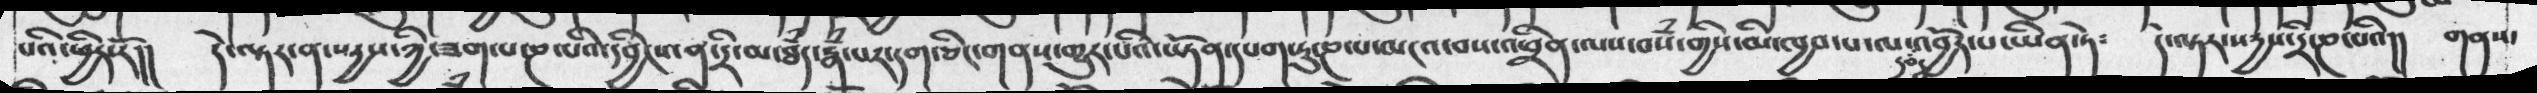པའི་ཕྱིར་རོ།།  དེ་ལྟར་ན་སདྱས་ཀྱི་ཟག་པ་ཎ་པའི་དབྱིངས་ན་དྲི་མ་ཐཾ་རྣཾ་པར་དག་ཅིང་གནས་གྱུར་པའི་ཡྟོན་དཔག་ཏུ་ཎ་པ་མངའ་བས་འཕྲིན་ལས་བསཾ་གྱིས་མི་ཁྱབ་པ་ལ་དབང་འབྱོར་པ་ཡིན་ཏེ༴   དེ་ལྟར་སདྱས་དྲི་ཎ་པའི།།  གནས་
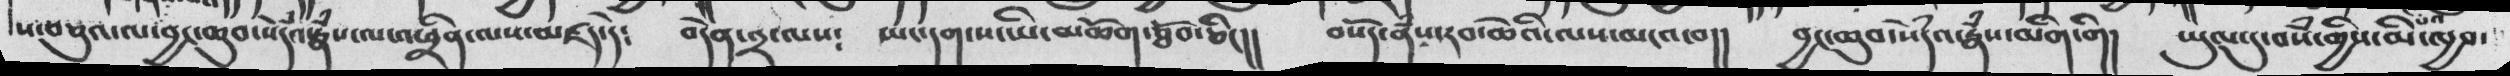ས་བཅུའ་ལ་བྱང་ཆུབ་སེཾདའ་རྣཾས་ལ་འཕྲིན་ལས་མཛད་དེ༴   བདེན་༢་ལས༴   ཡང་དག་ས་ཡི་མཆོག་ཐོབ་ཅིང།།  བསོད་ནཾས་རབ་ཆེའི་ལས་མངའ་བ།།  བྱང་ཆུབ་སེཾདའ་རྣཾས་མིག་གི།  ཡུལ་དུ་བསཾ་གྱིས་མི་ཁྱབ་
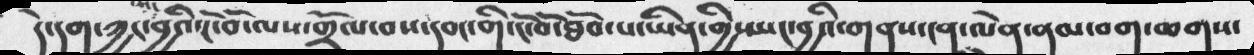དེ་དག་ཀྱང་སྤང་བྱའི་ངོ་བོ་ལས་གྲོལ་བས་དབང་གི་ངོ་བོ་ཐོབ་པ་ཡིན་གྱི་སྤང་བྱའི་གནས་ངན་ལེན་ནམ་བག་ཆགས་
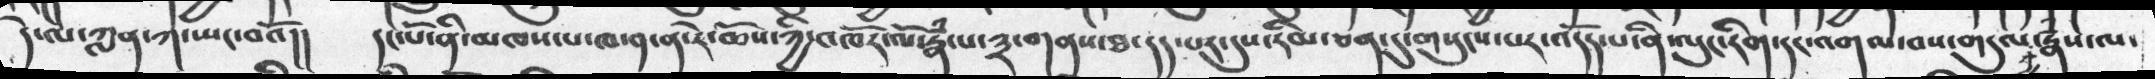དེ་ལ་ལ་ཀླན་ཀ་སྤང་བའོ།།  དང་པོ་ནི་མཁས་པ་ཁ་༡་ན་དེ་ཆོས་ཀྱི་འཁོར་ལོ་རྣཾ་པ་༣་གནས་ཐ་དད་པར་དུས་རིམ་ཅན་དུ་གསུངས་པར་འདོད་པ་ནི་ལུང་རིག་དང་འགལ་བས་གདུལ་བྱ་རྣཾས་ལ་
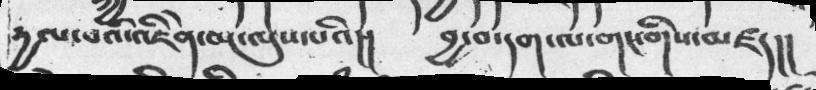རྱལ་བའི་འཇིེན་མ་ལུས་པའི།།  བྱ་བ་དག་ལ་གང་གིས་མཛད།།
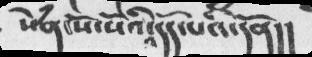སེཾན་སོ་སོའི་འདོད་པའི་དོན།།
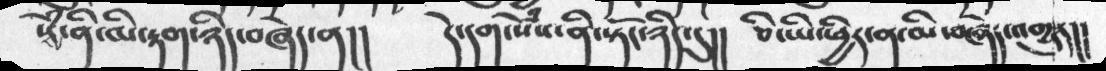སེཾས་ནི་མི་རྟག་ཉིད་བཞེད་ན།།    དེ་དག་སེཾས་ནི་སྟོང་ཉིད་དུ།།  ཅི་ཡི་ཕྱིར་ན་མི་བཞེད་འགྱུར།།
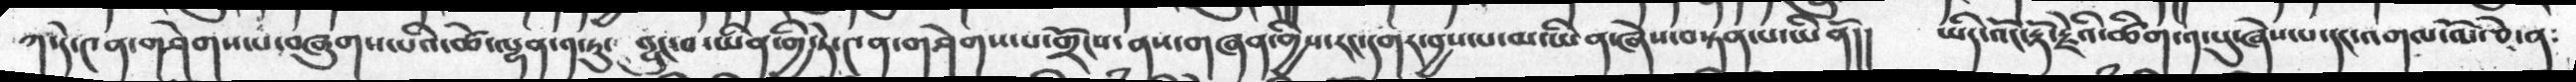ཀ་དེ་༤ན་གཤེགས་པ་བཞུགས་པའི་ཚེ་ལྷན་༡་ཏུ་   བྱུང་བ་མིན་གྱི་ཏེ་༤ན་གཤེགས་པ་གྲོངས་ནས་གཞན་གྱིས་རང་དགར་བྱས་པ་མ་ཡིན་ཞེས་བསྟན་པ་ཡིནོ།།   ཡིད་་འོང་རྡོ་རྗེའི་ཚིག་༡་པུ་ཞེས་པ་དང་འགལ་ལོ་ཅེ་ན༴
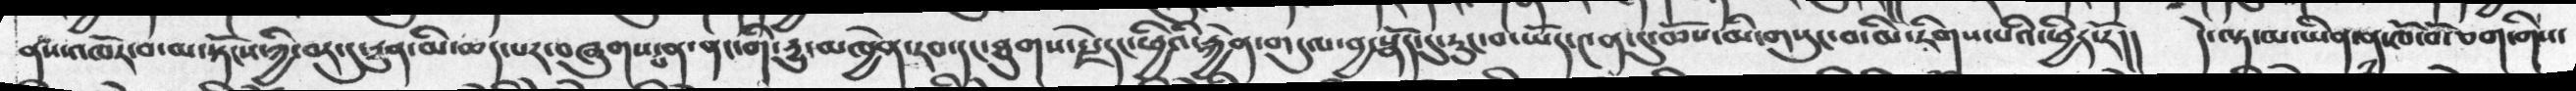ནས་འཁོར་བ་མ་སྟོངས་ཀྱི་བར་དུ་དྱུན་མི་ཆད་པར་བཞུགས་པན་ནང་གི་དྱུ་མཁྱེན་རབ་དང་ཐུགས་རྗེ་དང་ཕྱིའི་རྐྱེན་གདུལ་བྱ་སྣོད་དུ་རུང་བ་ཡོད་༤ན་དུ་ཆོས་མི་གསུང་བ་མི་རིགས་པའི་ཕྱིར་རོ།།   དེ་ལྟ་མ་ཡིན་ན་ཁོ་བོ་ཅག་གིས་
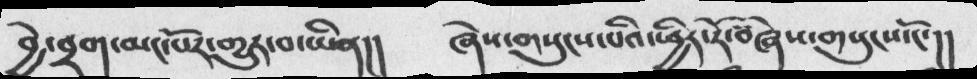བྱེ་བྲག་མང་པོར་གྱུར་བ་ཡིན།།      ཞེས་གསུངས་པའི་ཕྱིར་རོ་ཞེས་གསུངས་ངོ་།།
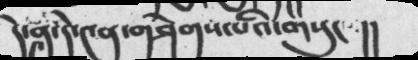དེ་༤ན་དེ་༤ན་གཤེགས་པའི་གསུང  །།
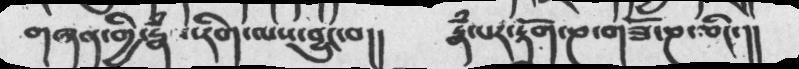གཞན་གྱི་རྣཾས་རིག་ལས་བྱུང་བ།།  རྣ་པར་རྟོག་ཎ་གཟོ་ཎ་ཅིང་།།
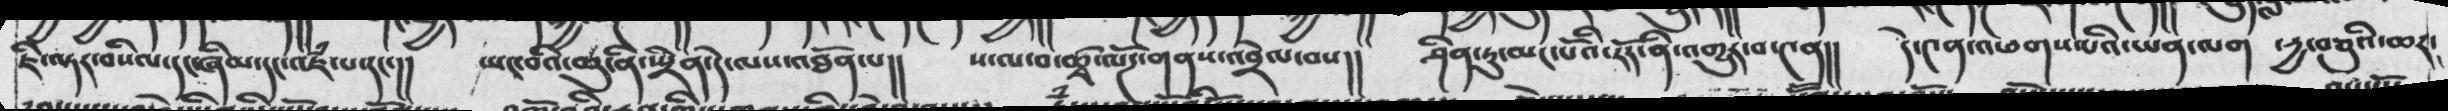ཇི་ལྟར་བསིལ་དང་ཞིམ་དང་འཇཾ་པ་དང་།།  ཡང་བའི་ཆུ་ནི་སྤྲིན་དེ་ལས་འཐོན་པ།།  ས་ལ་བ་ཚྭ་ལོཌ་གནས་འབྲེལ་བས།།  ཤིན་ཏུ་མང་པོའི་དྲོད་ནི་འགྱུར་བ་༤ན།།  དེ་༤ན་འཕགས་པའི་ཡན་ལག  ་དྱ་བཅུའི་ཆར་
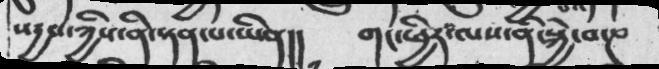སདྱས་ཀྱིས་ནི་སྟན་པ་ཡིན།།   གང་ཕྱིར་ལས་ན་སྐྱེ་བ་ཎ
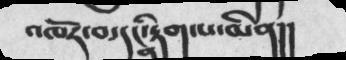འཁོར་བ་དང་རྟེག་པ་མིན།།
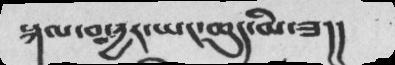སྐལ་བ་བརྱར་ཡང་ཆུད་མི་ཟ།།
